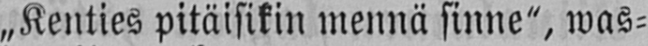„Kenties pitäisikin mennä sinne", was-
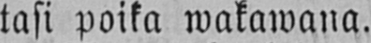tasi poika wakawana.
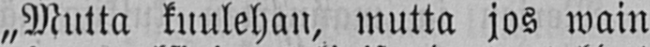„Mutta kuulehan, mutta jos wain
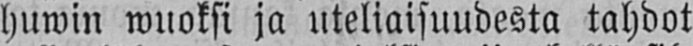huwin wuoksi ja uteliaisuudesta tahdot
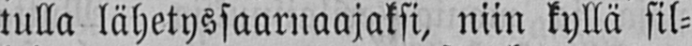tulla lähetyssaarnaajaksi, niin kyllä sil-
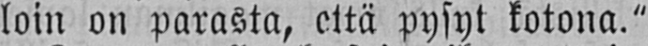loin on parasta, että pysyt kotona."
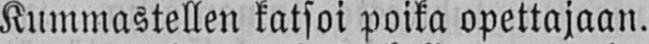Kummastellen katsoi poika opettajaan.
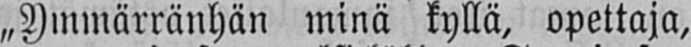„Ymmärränhän minä kyllä, opettaja,
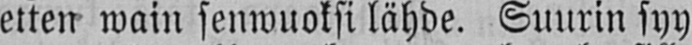etten wain senwuoksi lähde. Suurin syy
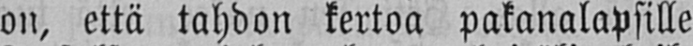on, että tahdon kertoa pakanalapsille
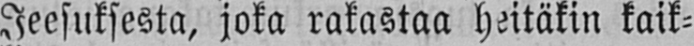Jeesuksesta, joka rakastaa heitäkin kaik-
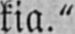kia."
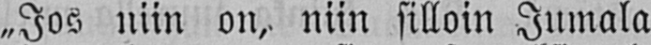„Jos niin on, niin silloin Jumala
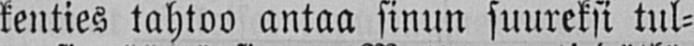kenties tahtoo antaa sinun suureksi tul-
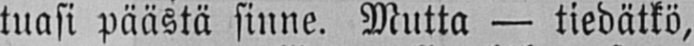tuasi päästä sinne. Mutta — tiedätkö,
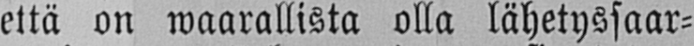että on waarallista olla lähetyssaar-
